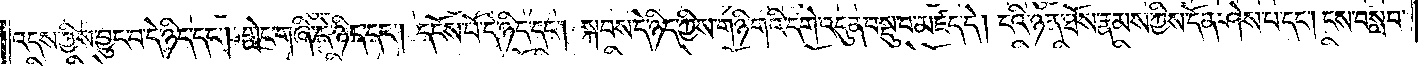འདས་ཀྱིས་བྱུང་བ་དེ་ཉིད་དང༌། གླེང་གཞི་དེ་ཉིད་དང༌། དངོས་པོ་དེ་ཉིད་དང༌། སྐབས་དེ་ཉིད་ཀྱིས་གཉི་གའི་དགེ་འདུན་བསྡུ་བ་མཛད་དེ། ངའི་ཉན་ཐོས་རྣམས་ཀྱིས་དོན་ཤེས་པ་དང༌། ངས་བསླབ་
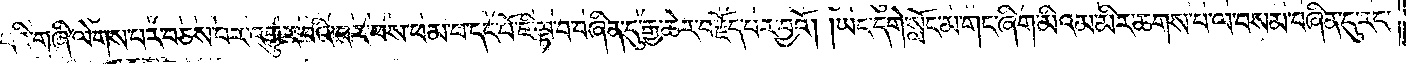པའི་གཞི་ལེགས་པར་བཅས་པར་འགྱུར་བའི་བར་ཕས་ཕམ་པ་དང་པོ་ཇི་ལྟ་བ་བཞིན་དུ་རྒྱ་ཆེར་བརྗོད་པར་བྱའོ། །ཡང་དགེ་སློང་མ་གང་ཞིག་མིའམ་མིར་ཆགས་པ་ལ་བསམ་བཞིན་དུ་རང་
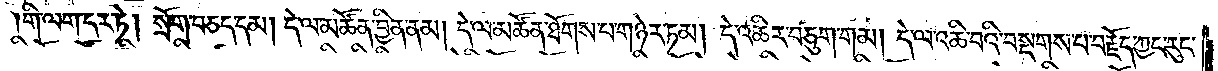གི་ལག་དར་ཏེ། སྲོག་བཅད་དམ། དེ་ལ་མཚོན་བྱིན་ནམ། དེ་ལ་མཚོན་ཐོགས་པ་གཉེར་ཏམ། དེ་འཆིར་བཅུག་གམ། དེ་ལ་འཆི་བའི་བསྔགས་པ་བརྗོད་ཀྱང་རུང་
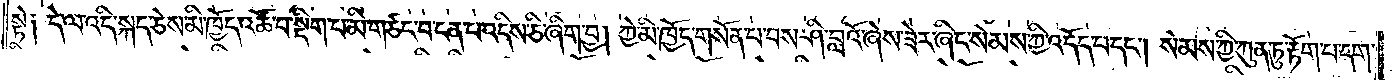སྟེ༑ དེ་ལ་འདི་སྐད་ཅེས་མི་ཁྱོད་འཚོ་བ་སྡིག་པ་མི་གཙང་བ་ངན་པ་འདིས་ཅི་ཞིག་བྱ། ཀྱེ་མི་ཁྱོད་གསོན་པ་བས་ཤི་བླའོ་ཞེས་ཟེར་ཞིང་སེམས་ཀྱི་འདོད་པ་དང༌། སེམས་ཀྱི་ཀུན་ཏུ་རྟོག་པ་དག་
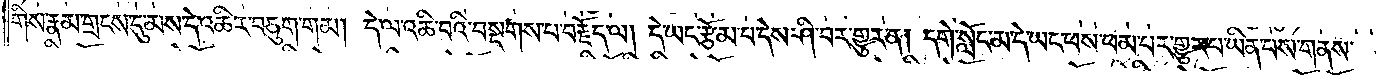གིས་རྣམ་གྲངས་དུ་མས་དེ་འཆིར་བཅུག་གམ། དེ་ལ་འཆི་བའི་བསྔགས་པ་བརྗོད་ལ། དེ་ཡང་རྩོམ་པ་དེས་ཤི་བར་གྱུར་ན། དགེ་སློང་མ་དེ་ཡང་ཕས་ཕམ་པར་གྱུར་པ་ཡིན་པས་གནས་
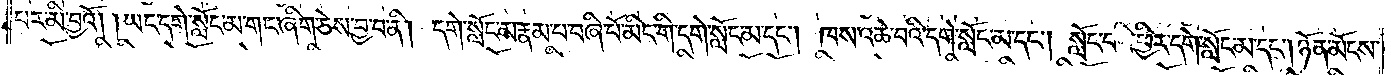པར་མི་བྱའོ། །ཡང་དགེ་སློང་མ་གང་ཞིག་ཅེས་བྱ་བ་ནི། དགེ་སློང་མ་རྣམ་པ་བཞི་པོ་མིང་གི་དགེ་སློང་མ་དང༌། ཁས་འཆེ་བའི་དགེ་སློང་མ་དང༌། སློང་བའི་ཕྱིར་དགེ་སློང་མ་དང༌། ཉོན་མོངས་
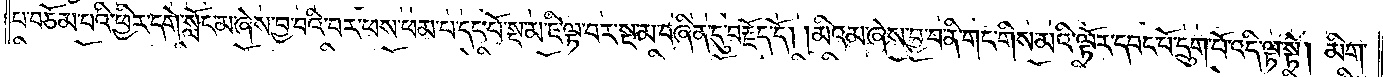པ་བཅོམ་པའི་ཕྱིར་དགེ་སློང་མ་ཞེས་བྱ་བའི་བར་ཕས་ཕམ་པ་དང་པོ་སྔ་མ་ཇི་ལྟ་བར་སྔ་མ་བཞིན་དུ་བརྗོད་དོ། །མིའམ་ཞེས་བྱ་བ་ནི་གང་གིས་མའི་ལྟོར་དབང་པོ་དྲུག་པོ་འདི་ལྟ་སྟེ། མིག་
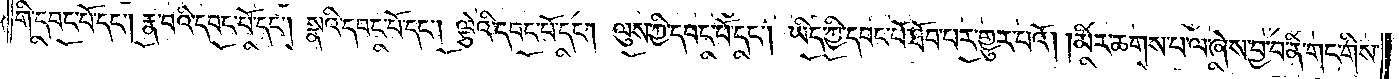གི་དབང་པོ་དང༌། རྣ་བའི་དབང་པོ་དང༌། སྣའི་དབང་པོ་དང༌། ལྕེའི་དབང་པོ་དང༌། ལུས་ཀྱི་དབང་པོ་དང༌། ཡིད་ཀྱི་དབང་པོ་ཐོབ་པར་གྱུར་པའོ། །མིར་ཆགས་པ་ལ་ཞེས་བྱ་བ་ནི་གང་གིས་
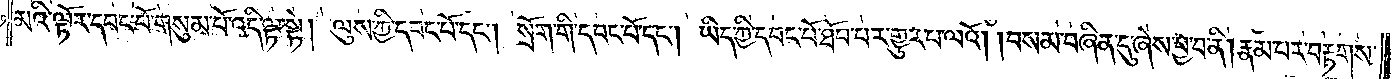མའི་ལྟོར་དབང་པོ་གསུམ་པོ་འདི་ལྟ་སྟེ། ལུས་ཀྱི་དབང་པོ་དང༌། སྲོག་གི་དབང་པོ་དང༌། ཡིད་ཀྱི་དབང་པོ་ཐོབ་པར་གྱུར་པ་ལའོ། །བསམ་བཞིན་དུ་ཞེས་བྱ་བ་ནི། རྣམ་པར་བརྟགས་
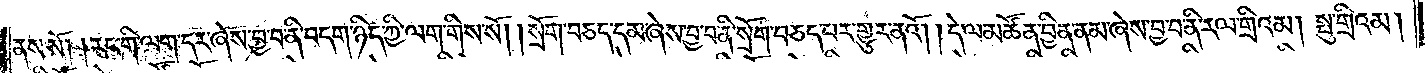ནས་སོ། །རང་གི་ལག་དར་ཞེས་བྱ་བ་ནི་བདག་ཉིད་ཀྱི་ལག་གིས་སོ། །སྲོག་བཅད་དམ་ཞེས་བྱ་བ་ནི་སྲོག་བཅད་པར་གྱུར་ནའོ། །དེ་ལ་མཚོན་བྱིན་ནམ་ཞེས་བྱ་བ་ནི་རལ་གྲིའམ། སྤུ་གྲིའམ།
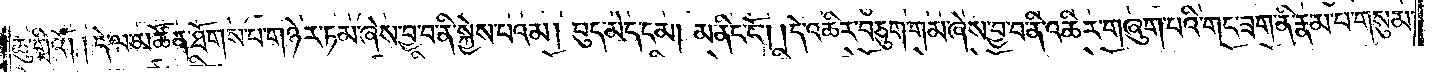ཆུ་གྲིའོ། །དེ་ལ་མཚོན་ཐོགས་པ་གཉེར་ཏམ་ཞེས་བྱ་བ་ནི་སྐྱེས་པའམ། བུད་མེད་དམ། མ་ནིང་ངོ༌། །དེ་འཆིར་བཅུག་གམ་ཞེས་བྱ་བ་ནི་འཆིར་གཞུག་པའི་གང་ཟག་ནི་རྣམ་པ་གསུམ་
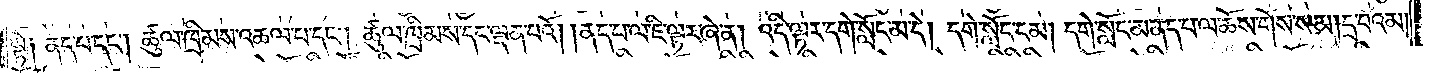སྟེ༑ ནད་པ་དང༌། ཚུལ་ཁྲིམས་འཆལ་པ་དང༌། ཚུལ་ཁྲིམས་དང་ལྡན་པའོ། །ནད་པ་ལ་ཇི་ལྟར་ཞེ་ན། འདི་ལྟར་དགེ་སློང་མ་དེ། དགེ་སློང་ངམ། དགེ་སློང་མ་ནད་པ་ལ་ཆོས་གོས་སམ། དྲ་བའམ།
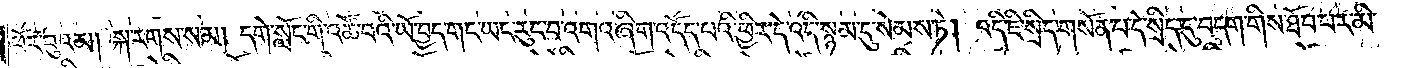ཕོར་བུའམ། སྐ་རགས་སམ། དགེ་སློང་གི་འཚོ་བའི་ཡོ་བྱད་གང་ཡང་རུང་བ་འགའ་ཞིག་འདོད་པའི་ཕྱིར་དེ་འདི་སྙམ་དུ་སེམས་ཏེ། འདི་ཇི་སྲིད་གསོན་པ་དེ་སྲིད་དུ་བདག་གིས་ཐོབ་པར་མི་
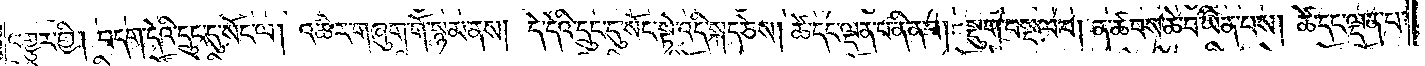འགྱུར་གྱི། བདག་དེའི་དྲུང་དུ་སོང་ལ། འཆིར་གཞུག་གོ་སྙམ་ནས། དེ་དེའི་དྲུང་དུ་སོང་སྟེ་འདི་སྐད་ཅེས། ཚེ་དང་ལྡན་པ་ནི་ན་བ། སྡུག་བསྔལ་བ། ན་ཚབས་ཆེ་བ་ཡིན་པས། ཚེ་དང་ལྡན་པ་
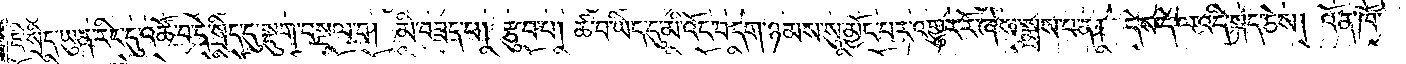ཇི་སྲིད་ཡུན་རིང་དུ་འཚོ་བ་དེ་སྲིད་དུ་སྡུག་བསྔལ་བ། མི་བཟད་པ། རྩུབ་པ། ཚ་བ་ཡིད་དུ་མི་འོང་བདག་ཉམས་སུ་མྱོང་པར་འགྱུར་རོ་ཞེས་སྨྲས་པ་ན། དེས་དེ་ལ་འདི་སྐད་ཅེས། འོ་ན་ཁོ་
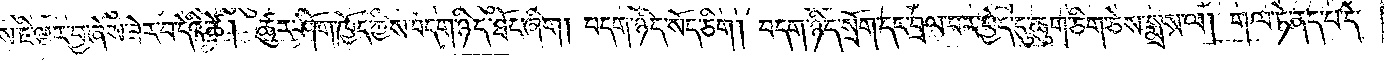བོས་ཇི་ལྟར་བྱ་ཞེས་ཟེར་བ་དེའི་ཚེ། ཚུར་ཤོག་ཁྱོད་ཀྱིས་བདག་ཉིད་ཐོང་ཞིག །བདག་ཉིད་སོད་ཅིག། བདག་ཉིད་སྲོག་དང་བྲལ་བར་བྱེད་དུ་ཆུག་ཅིག་ཅེས་སྨྲས་ལ། གལ་ཏེ་ནད་པ་དེ་
